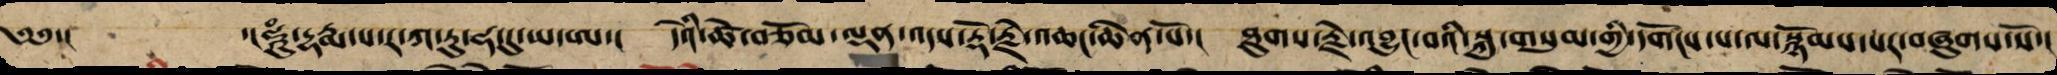༄༅་། ་།ཧཱུྃ་དྷརྨ་ས་ར་ཀ་རུ་ཧ་དུ་ཡ་ཨ་། དེའི་ཚེ་བཅོམ་ལྡན་འདས་རྡོ་རྗེ་འཆང་ཆེན་པོ་། ཐུགས་རྗེ་འབྱུང་བའི་སྐུ་གསུམ་གྱི་དགོངས་པ་ལ་སྙོམས་པར་བཞུགས་སོ་།
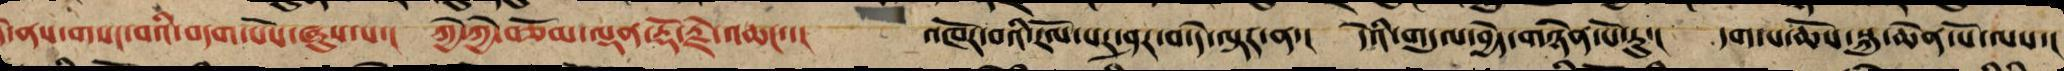དེ་ནས་གསང་བའི་བདག་པོས་ཞུས་པ་། ཀྱེ་ཀྱེ་བཅོམ་ལྡན་རྡོ་རྗེ་འཆང་་། འཁོར་བའི་རོལ་པར་ཤར་པ་དེ་ལྟར་ན་། དེ་ཡི་འདུལ་བྱེད་གཉེན་པོ་རུ་། དག་པ་ཆོས་སྐུ་ཆེན་པོ་ལས་།
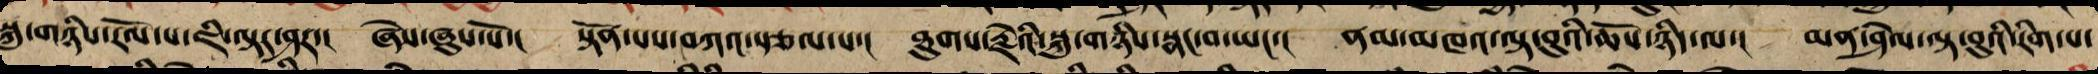སྐུ་གཉིས་རོལ་པ་ཇི་ལྟར་ཤར་། ཞེས་ཞུས་སོ་། སྟོན་པས་བཀའ་སྩལ་པ་། ཐུགས་རྗེའི་སྐུ་གཉིས་སྣང་བ་ཡང་། ནམ་མཁའ་ལྟ་བུའི་ཆོས་ཉིད་ལ་། མན་ཤེལ་ལྟ་བུའི་རིག་པ་
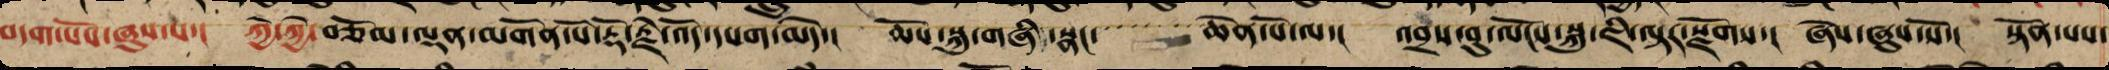བདག་པོས་ཞུས་པ་། ཀྱེ་ཀྱེ་བཅོམ་ལྡན་མགོན་པོ་རྡོ་རྗེ་འོད་དཔག་མེད་། ཆོས་སྐུ་གཞི་སྣང་ ཆེན་པོ་ལ་། འབྲས་བུ་ལོངས་སྐུ་ཇི་ལྟར་སྫོགས་། ཞེས་ཞུས་སོ་། སྟོན་པས་
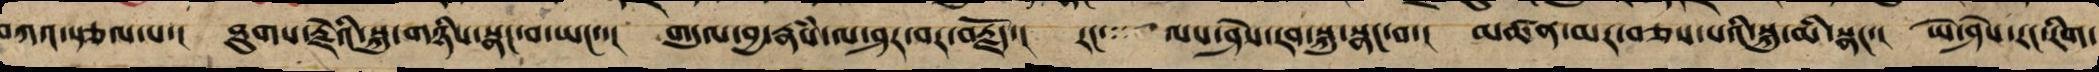བཀའ་སྩལ་པ་། ཐུགས་རྗེའི་སྐུ་གཉིས་སྣང་བ་ཡང་་། གདུལ་བྱ་རྣཾས་ལ་ཤར་བར་བརྗོད་། རང་ ལས་ཤེས་རབ་སྐུར་སྣང་བ་། མཚན་མར་བཅས་པའི་སྐུ་མི་སྣང་། ཡེ་ཤེས་རང་རིག་
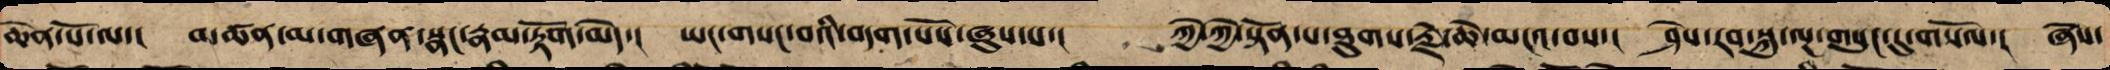ཆེན་པོ་ལ་། མཚན་མ་གཞན་སྣང་རྣམ་རྟོག་མེད་། ཡང་གསང་བའི་བདག་པོས་ཞུས་པ་། ཀྱེ་ཀྱེ་སྟོན་པ་ཐུགས་རྗེ་ཆེ་མངའ་བས་། ཤེས་རབ་སྐུ་ལྔ་གསུང་དུ་གསོལ་། ཞེས་
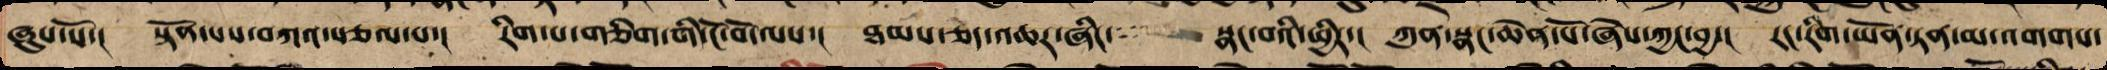ཞུས་སོ་། སྟོན་པས་བཀའ་སྩལ་པ་། རིག་པ་གཅིག་གི་ངོ་བོ་ལས་། ཐམས་ཅད་འཆར་ཞིང་ སྣང་བའི་ཕྱིར་། ཀུན་སྣང་ཆེན་པོ་ཞེས་ཀྱང་བྱ་། རང་རིག་ཡོན་ཏན་མ་འགགས་
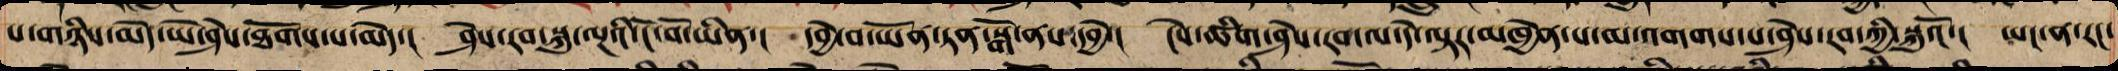པ་གཉིས་མེད་ཡེ་ཤེས་ཐོགས་པ་མེད་། ཤེས་རབ་སྐུ་ལྔའི་ངོ་བོ་ཡིན་། དབྱེ་བ་ཡོན་ཏན་སྒོ་ནས་དབྱེ་། ངེས་ཚིག་ཤེས་རབ་ལ་དེ་ལྟར་མཁྱེན་པ་མ་འགགས་པས་ཤེས་རབ་ཀྱི་སྐུའོ་། ཡང་ན་རང་
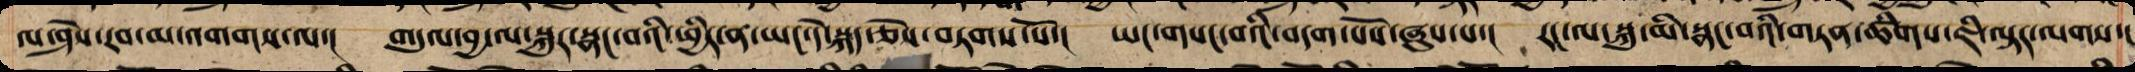ལ་ཤེས་རབ་མ་འགགས་ལ་། གདུལ་བྱ་ལ་སྐུར་སྣང་བའི་ཕྱིར་ན་ཡང་དེ་སྐད་ཅེས་བཏགས་སོ་། ཡང་གསང་བའི་བདག་པོས་ཞུས་པ་། རང་ལ་སྐུ་མི་སྣང་བའི་གཏན་ཚིགས་ཇི་ལྟར་ལགས་།
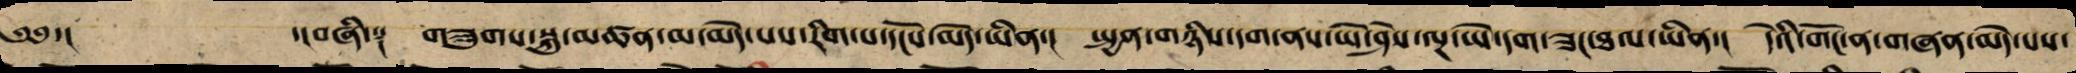༄༅་། ་།བཞི་༑ གཟུགས་སྐུ་མཚན་མ་མེད་པས་རིག་པ་དངོས་མེད་ཡིན་། སྤྱན་གཉིས་དག་ནས་ཡེ་ཤེས་ལྔ་ཡེ་དག་ཟང་ཐལ་ཡིན་། དེའི་གོང་ན་གཞན་མེད་པས་
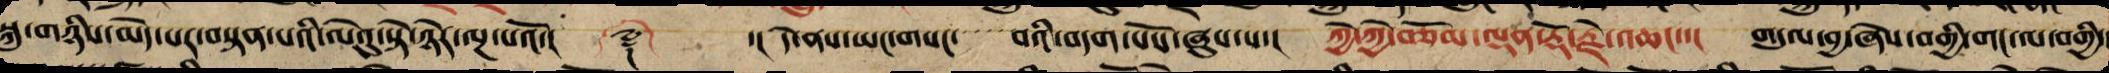སྐུ་གཉིས་མེད་པར་བསྟན་པའི་ལེའུ་སྟེ་ཉེར་ལྔ་པའོ་།། ༈ ་། དེ་ནས་ཡང་གསང་   བའི་བདག་པོས་ཞུས་པ་། ཀྱེ་ཀྱེ་བཅོམ་ལྡན་རྡོ་རྗེ་འཆང་་། གདུལ་བྱ་ཞེས་བགྱི་གང་ལ་བགྱི་།
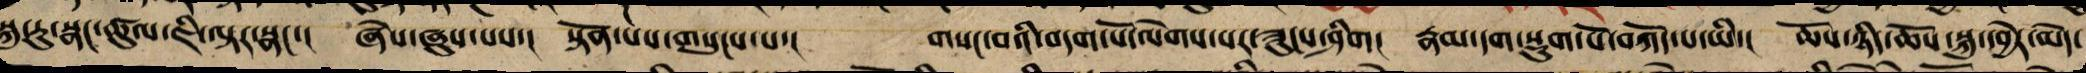སྐུ་རུ་སྣང་ཚུལ་ཇི་ལྟར་སྣང་། ཞེས་ཞུས་པས་། སྟོན་པས་གསུངས་པ་། གསང་བའི་བདག་པོ་ལེགས་པར་ཟུང་ཤིག། རྣམ་དག་སྡུག་པོ་བཀོད་པ་ཡི་། ཆོས་ཉིད་ཆོས་སྐུ་དབྱེར་མེད་
